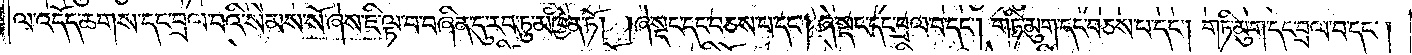ལ་འདོད་ཆགས་དང་བྲལ་བའི་སེམས་སོ་ཞེས་ཇི་ལྟ་བ་བཞིན་དུ་རབ་ཏུ་མཁྱེན་ཏོ། །ཞེ་སྡང་དང་བཅས་པ་དང༌། ཞེ་སྡང་དང་བྲལ་བ་དང༌། གཏི་མུག་དང་བཅས་པ་དང༌། གཏི་མུག་དང་བྲལ་བ་དང༌།
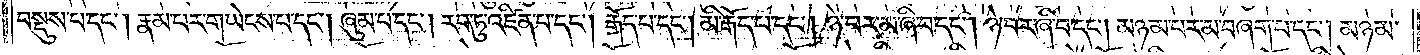བསྡུས་པ་དང༌། རྣམ་པར་གཡེངས་པ་དང༌། ཞུམ་པ་དང༌། རབ་ཏུ་འཛིན་པ་དང༌། རྒོད་པ་དང༌། མི་རྒོད་པ་དང༌། ཉེ་བར་མ་ཞི་བ་དང༌། ཉེ་བར་ཞི་བ་དང༌། མཉམ་པར་མ་བཞག་པ་དང༌། མཉམ་
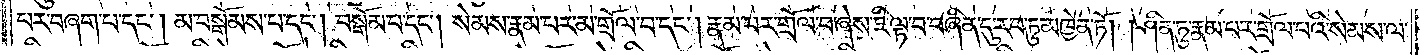པར་བཞག་པ་དང༌། མ་བསྒོམས་པ་དང༌། བསྒོམ་པ་དང༌། སེམས་རྣམ་པར་མ་གྲོལ་བ་དང༌། རྣམ་པར་གྲོལ་བ་ཞེས་ཇི་ལྟ་བ་བཞིན་དུ་རབ་ཏུ་མཁྱེན་ཏོ། །ཤིན་ཏུ་རྣམ་པར་གྲོལ་བའི་སེམས་ལ་
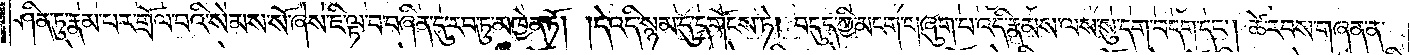ཤིན་ཏུ་རྣམ་པར་གྲོལ་བའི་སེམས་སོ་ཞེས་ཇི་ལྟ་བ་བཞིན་དུ་རབ་ཏུ་མཁྱེན་ཏོ། །དེ་འདི་སྙམ་དུ་དགོངས་ཏེ། བདུད་ཀྱི་མངག་གཞུག་པ་འདི་རྣམས་ལས་སུ་དག་བདག་དང༌། ཚེ་རབས་གཞན་ན་
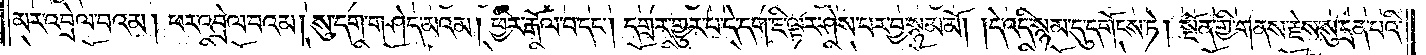མར་འབྲེལ་བའམ། ཕར་འབྲེལ་བའམ། སུ་དག་གཤེད་མའམ། ཕྱིར་རྒོལ་བ་དང༌། དགྲར་གྱུར་པ་དེ་དག་ཇི་ལྟར་ཤེས་པར་བྱ་སྙམ་མོ། །དེ་འདི་སྙམ་དུ་དགོངས་ཏེ། སྔོན་གྱི་གནས་རྗེས་སུ་དྲན་པའི་
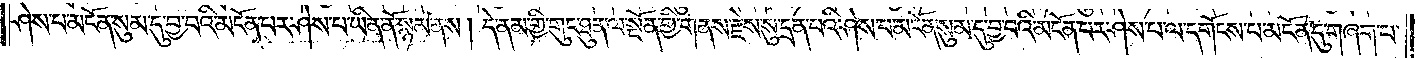ཤེས་པ་མངོན་སུམ་དུ་བྱ་བའི་མངོན་པར་ཤེས་པ་ཡིན་ནོ་སྙམ་ནས། དེ་ནམ་གྱི་གུང་ཐུན་ལ་སྔོན་གྱི་གནས་རྗེས་སུ་དྲན་པའི་ཤེས་པ་མངོན་སུམ་དུ་བྱ་བའི་མངོན་པར་ཤེས་པ་ལ་དགོངས་པ་མངོན་དུ་གཞག་པ་
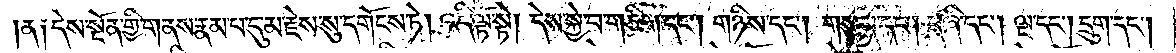།ན༑ དེས་སྔོན་གྱི་གནས་རྣམ་པ་དུ་མ་རྗེས་སུ་དགོངས་ཏེ། འདི་ལྟ་སྟེ། དེས་སྐྱེ་བ་གཅིག་དང༌། གཉིས་དང༌། གསུམ་དང༌། བཞི་དང༌། ལྔ་དང༌། དྲུག་དང༌།
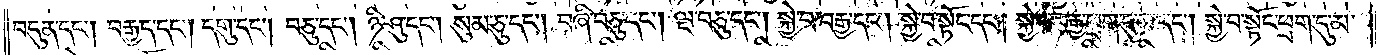བདུན་དང༌། བརྒྱད་དང༌། དགུ་དང༌། བཅུ་དང༌། ཉི་ཤུ་དང༌། སུམ་ཅུ་དང༌། བཞི་བཅུ་དང༌། ལྔ་བཅུ་དང༌། སྐྱེ་བ་བརྒྱ་དང༌། སྐྱེ་བ་སྟོང་དང༌། སྐྱེ་བ་བརྒྱ་ཕྲག་དུ་མ་དང༌། སྐྱེ་བ་སྟོང་ཕྲག་དུ་མ་
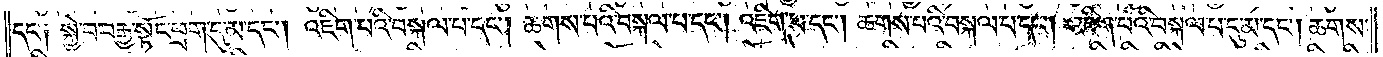དང་༑ སྐྱེ་བ་བརྒྱ་སྟོང་ཕྲག་དུ་མ་དང༌། འཇིག་པའི་བསྐལ་པ་དང༌། ཆགས་པའི་བསྐལ་པ་དང༌། འཇིག་པ་དང༌། ཆགས་པའི་བསྐལ་པ་དང༌། འཇིག་པའི་བསྐལ་པ་དུ་མ་དང༌། ཆགས་
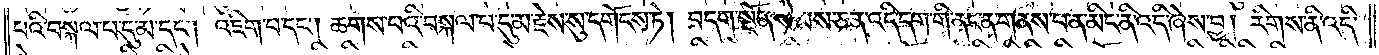པའི་བསྐལ་པ་དུ་མ་དང༌། འཇིག་པ་དང༌། ཆགས་པའི་བསྐལ་པ་དུ་མ་རྗེས་སུ་དགོངས་ཏེ། བདག་སྔོན་སེམས་ཅན་འདི་དག་གི་ནང་ན་གནས་པ་ན་མིང་ནི་འདི་ཞེས་བྱ། རིགས་ནི་འདི་
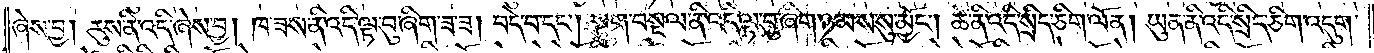ཞེས་བྱ། རུས་ནི་འདི་ཞེས་བྱ། ཁ་ཟས་ནི་འདི་ལྟ་བུ་ཞིག་ཟ་ཟ། བདེ་བ་དང༌། སྡུག་བསྔལ་ནི་འདི་ལྟ་བུ་ཞིག་ཉམས་སུ་མྱོང༌། ཚེ་ནི་འདི་སྲིད་ཅིག་ལོན། ཡུན་ནི་འདི་སྲིད་ཅིག་འདུག་
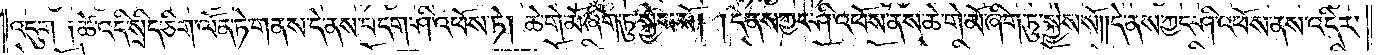འདུག་༑ཚེ་འདི་སྲིད་ཅིག་ལོན་ཏེ་གནས་དེ་ནས་བདག་ཤི་འཕོས་ཏེ། ཆེ་གེ་མོ་ཞིག་ཏུ་སྐྱེས་སོ། །དེ་ནས་ཀྱང་ཤི་འཕོས་ནས་ཆེ་གེ་མོ་ཞིག་ཏུ་སྐྱེས་སོ། །དེ་ནས་ཀྱང་ཤི་འཕོས་ནས་འདིར་
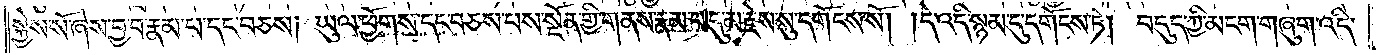སྐྱེས་སོ་ཞེས་བྱ་བ་རྣམ་པ་དང་བཅས། ཡུལ་ཕྱོགས་དང་བཅས་པས་སྔོན་གྱི་གནས་རྣམ་པ་དུ་མ་རྗེས་སུ་དགོངས་སོ། །དེ་འདི་སྙམ་དུ་དགོངས་ཏེ། བདུད་ཀྱི་མངག་གཞུག་འདི་
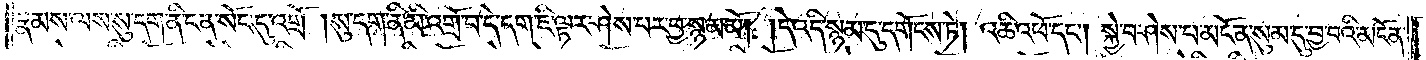རྣམས་ལས་སུ་དག་ནི་ངན་སོང་དུ་འགྲོ་།སུ་དག་ནི་མི་འགྲོ་བ་དེ་དག་ཇི་ལྟར་ཤེས་པར་བྱ་སྙམ་མོ། །དེ་འདི་སྙམ་དུ་དགོངས་ཏེ། འཆི་འཕོ་དང༌། སྐྱེ་བ་ཤེས་པ་མངོན་སུམ་དུ་བྱ་བའི་མངོན་
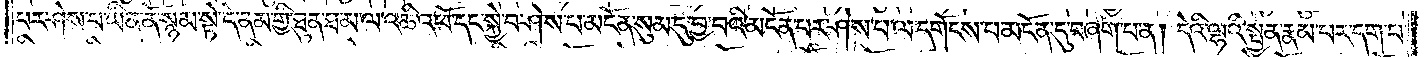པར་ཤེས་པ་ཡིན་ནོ་སྙམ་སྟེ་དེ་ནམ་གྱི་ཐུན་ཐ་མ་ལ་འཆི་འཕོ་དང་སྐྱེ་བ་ཤེས་པ་མངོན་སུམ་དུ་བྱ་བའི་མངོན་པར་ཤེས་པ་ལ་དགོངས་པ་མངོན་དུ་བཞག་པ་ན། དེའི་ལྷའི་སྤྱན་རྣམ་པར་དག་པ་
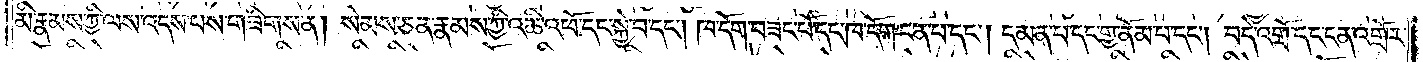མི་རྣམས་ཀྱི་ལས་འདས་པས་གཟིགས་ན། སེམས་ཅན་རྣམས་ཀྱི་འཆི་འཕོ་དང་སྐྱེ་བ་དང༌། ཁ་དོག་བཟང་པོ་དང་ཁ་དོག་ངན་པ་དང༌། དམན་པ་དང་གྱ་ནོམ་པ་དང༌། བདེ་འགྲོ་དང་ངན་འགྲོར་
